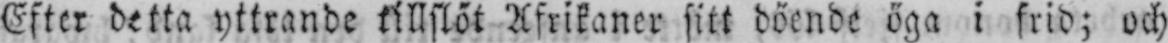Efter detta yttrande tillslöt Afrikaner sitt döende öga i frid; och
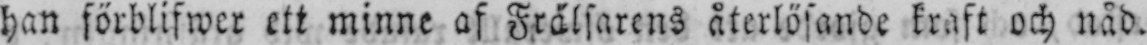han förblifwer ett minne af Frälsarens återlösande kraft och nåd.
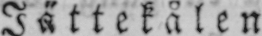J ä t t e k å l e n.
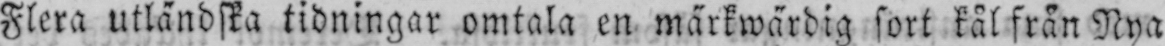Flera utländska tidningar omtala en märkwärdig sort kål från Nya
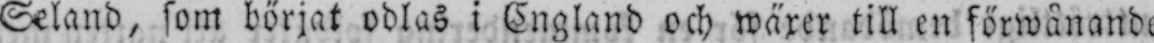Seland, som börjat odlas i England och wäxer till en förwånande höjd
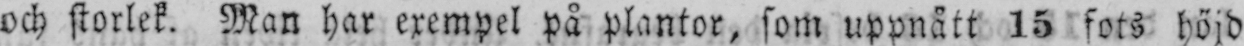och storlek. Man har exempel på plantor, som uppnått 15 fots höjd
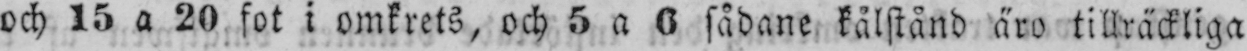och 15 a 20 fot i omkrets, och 5 a 6 sådane kålstånd äro tillräckliga
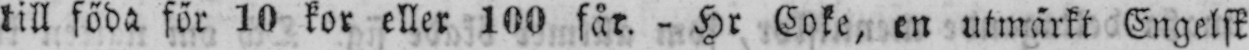till föda för 10 kor eller 100 får. - Hr Coke, en utmärkt Engelsk
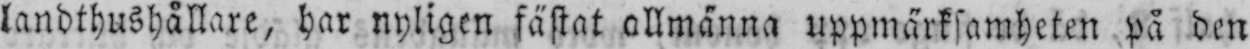landthushållare, har nyligen fästat allmänna uppmärksamheten på den
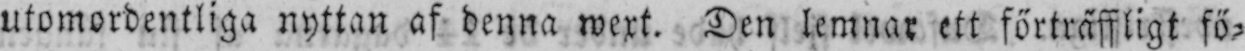utomordentliga nyttan af denna wext. Den lemnar ett förträffligt fö-
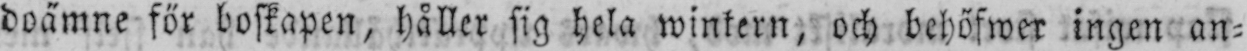doämne för boskapen, håller sig hela wintern, och behöfwer ingen an-
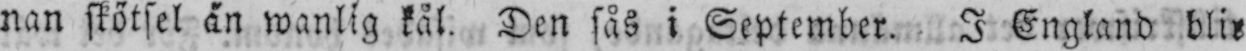nan skötsel än wanlig kål. Den sås i September. I England blir
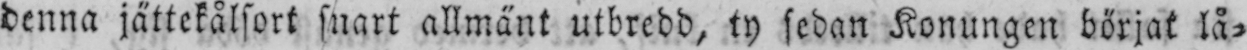denna jättekålsort snart allmänt utbredd, ty sedan Konungen börjat lå-
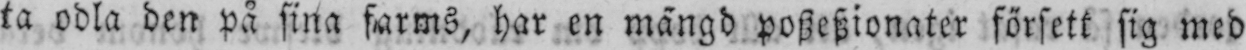ta odla den på sina farms, har en mängd poszeszionater försett sig med
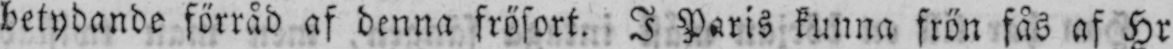betydande förråd af denna frösort. I Paris kunna frön fås af Hr O-
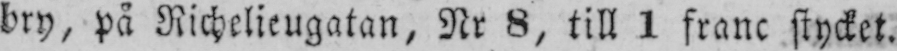bry, på Richelieugatan, Nr 8, till 1 franc stycket.
